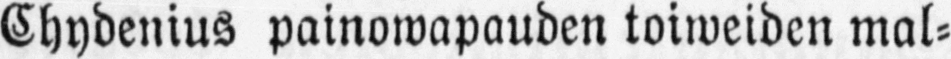Chydenius painowapauden toiweiden mal-
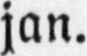jan.
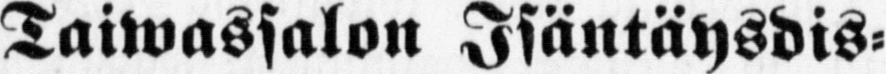Taiwassalon Isäntäysdis-
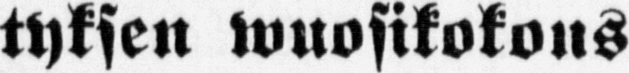tyksen wuosikokous
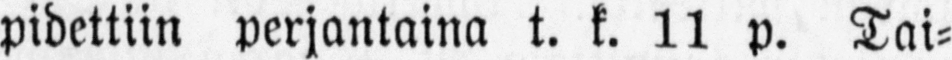pidettiin perjantaina t. k. 11 p. Tai-
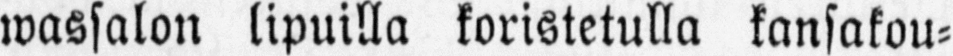wassalon lipuilla koristetulla kansakou-
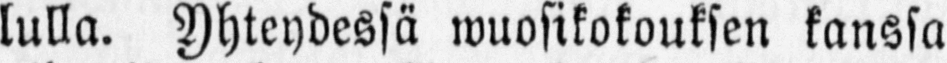lulla. Yhteydessä wuosikokouksen kanssa
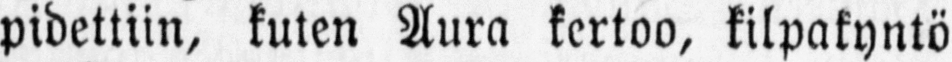pidettiin, kuten Aura kertoo, kilpakyntö
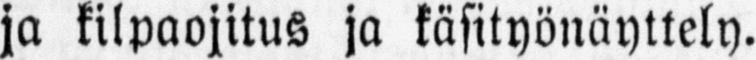ja kilpaojitus ja käsityönäyttely.
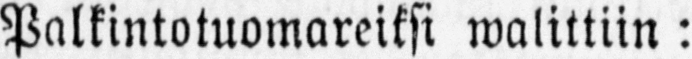Palkintotuomareiksi walittiin:
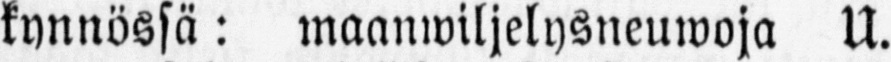kynnössä: maanwiljelysneuwoja U.
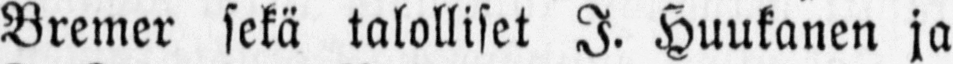Bremer sekä talolliset I. Huukanen ja
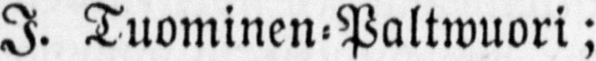J. Tuominen-Paltwuori;
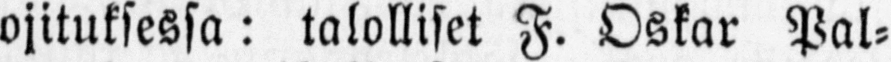ojituksessa: talolliset F. Oskar Pal-
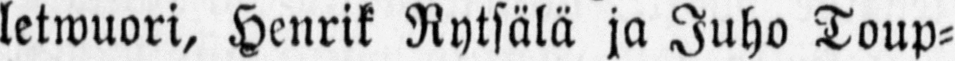letwuori, Henrik Rytsälä ja Juho Toup-
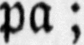pa;
